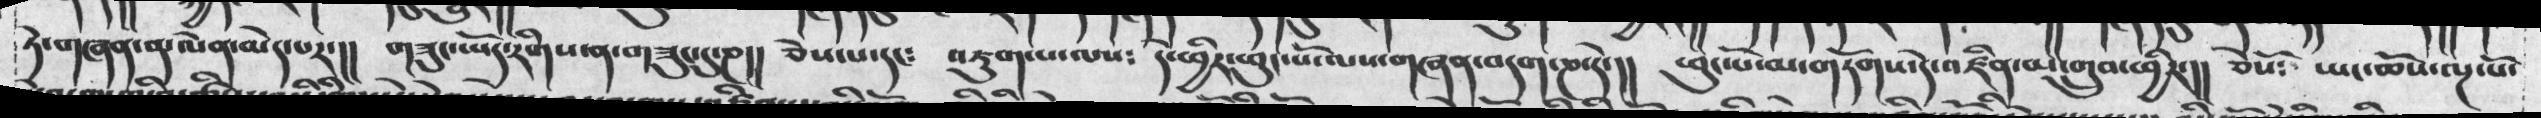ཏེ་གཞན་ན་ལེན་མེད་པར་།།   གཟུང་ཡོད་རིགས་ན་གཟུང་དུ་ཎ།།    ཅེས་པ་དང༴  འཇུག་པ་ལས༴   དེ་ཕྱིར་ཕུང་པོ་ལས་གཞན་བདག་ཎ་དེ་།།   ཕུང་པོ་མ་གཏོགས་དེ་འཛིན་མ་གྲུབ་ཕྱིར་།།   ཅེསོ༴   ཡང་ཆོས་ལྔ་པོ་
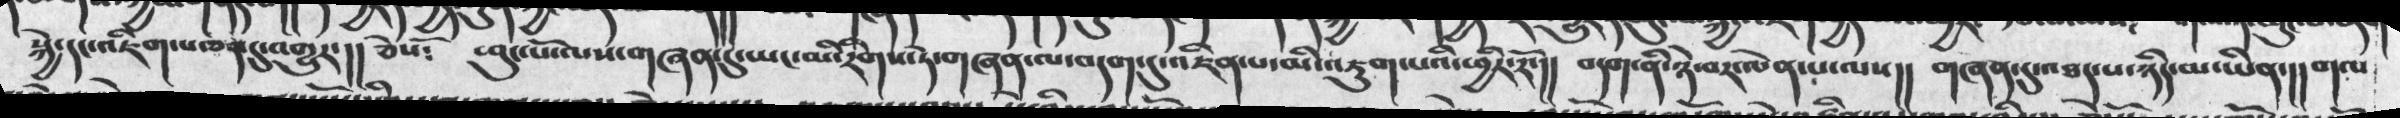སྐྱེ་དང་འཇིག་པ་ཅན་དུ་འགྱུར་།།  ཅེསོ༴   ཕུང་པོ་ལས་གཞན་དུ་ཡང་མི་རིགས་ཏེ་གཞན་ལ་བདག་དུ་འཛིན་པ་མི་འཇུག་པའི་ཕྱིར་རོ་།།  བདག་ནི་ཉེ་བར་ལེན་པ་ལས།།   གཞན་དུ་འཐད་པ་ཉིད་མ་ཡིན་།། གལ་
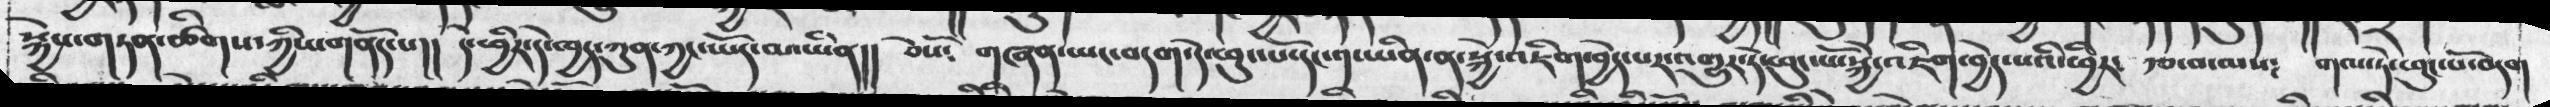སྐྱེས་གཏན་ཚིགས་ཀྱིས་གནོད་པ།། དེ་ཕྱིར་དེ་ཁྱད་ཀུན་ཀྱང་ཡོད་མ་ཡིན།། ཅེསོ༴ གཞན་ཡང་བདག་དེ་ཕུང་པོ་དང་༡་ཡིན་ན་སྐྱེ་འཇིག་བྱེད་པར་འགྱུར་དེ་ཕུང་པོ་སྐྱེ་འཇིག་བྱེད་པའི་ཕྱིར་ རྩ་བ་ལས༴ གལ་ཏེ་ཕུང་པོ་བདག
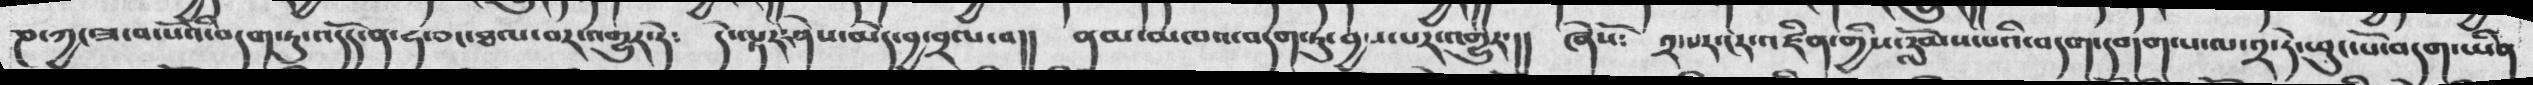ཎ་ཀྱང་ཟ་བ་པོའི་བདག་ཏུ་འདོད་ན་ཧ་ཅང་ཐལ་བར་འགྱུར་ཏེ༴ དེ་ལྟར་ཤེས་མེད་བྱ་བྲལ་བ།། ནམ་མཁའ་བདག་ཏུ་བྱས་པར་འགྱུར་།། ཞེསོ༴ ༢་པར་ངར་འཛིན་གྱིས་རློམས་པའི་བདག་དགག་པ་ལ་༢་ཏེ་ཕུང་པོ་བདག་ཡིན
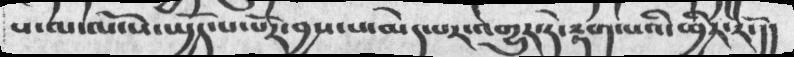ས་ལ་ལོངས་ཡྱོད་པ་པོར་བྱས་པ་མེད་པར་འགྱུར་ཏེ་རྟག་པའི་ཕྱིར་རོ་།།
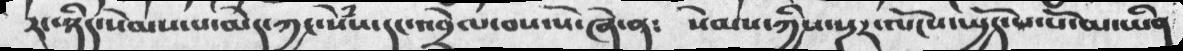རང་ཉིད་སེམས་པ་མེད་ཀྱང་སེྃས་དང་འབྲེལ་བས་སོ་ཞེ་ན༴     སེམས་ཀྱིས་སྔར་ལོངས་ཡྱོད་པ་པོ་མ་ཡིན
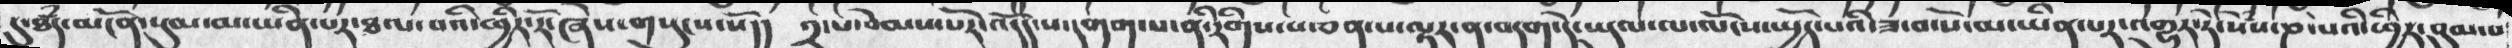དུ་ཐཾད་མངོན་སུམ་མ་ཡིན་པར་ཐལ་བའི་ཕྱིར་རོ་ཞེས་གསུངས་སོ།།  ༢་པ་བེམས་པོར་འདོད་པ་དགག་པ་ནི་རིགས་པ་ཅན་པ་ལྟར་ན་བདག་དེ་ཡུལ་ལ་ལོངས་ཡྱོད་པའི་ཟ་བ་པོ་མ་ཡིན་པར་འགྱུར་ཏེ་སེྃས་ཎ་པའི་ཕྱིར་བུམ་པ
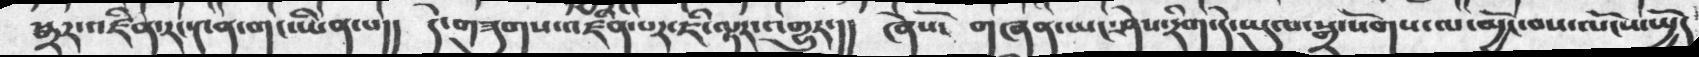སྒྲར་འཛིན་རང་༤ན་གང་ཡིན་པ།། དེ་གཟུགས་འཛིན་པར་ཇི་ལྟར་འགྱུར་།། ཞེསོ་ གཞན་ཡང་ཤེས་རིག་དེ་ཡུལ་སྒྲ་སོགས་ལ་མྱོང་བས་ལོངས་སྤྱོད
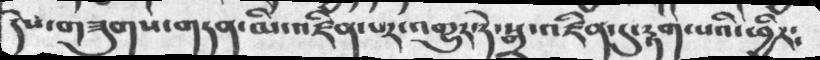དེས་གཟུགས་གཏན་མི་འཛིན་པར་འགྱུར་ཏེ་སྒྲ་འཛིན་དུ་རྟག་པའི་ཕྱིར༴
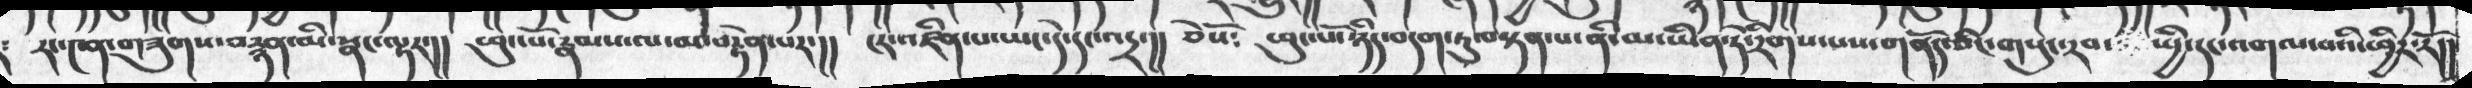རང་༤ན་གཟུགས་བརྙན་མི་སྣང་ལྟར་།།  ཕུང་པོ་རྣམས་ལ་མ་བརྟེན་པར་།།   ངར་འཛིན་པ་ཡང་དེ་དང་འདྲ་།།  ཅེསོ༴  ཕུང་པོ་ཉིད་བདག་ཏུ་བསྟན་པ་ནི་མ་ཡིན་དེ་རིགས་པས་གནོད་ཅིང་གསུང་རབ་ཡྱི་དང་འགལ་བའི་ཕྱིར་རོ།།
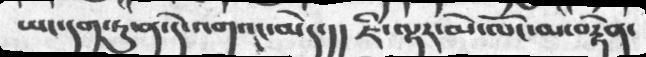ཡང་དག་ཏུ་ན་དེ་འགའང་མེད་།།    ཇི་ལྟར་མེ་ལོང་མ་བརྟེན་
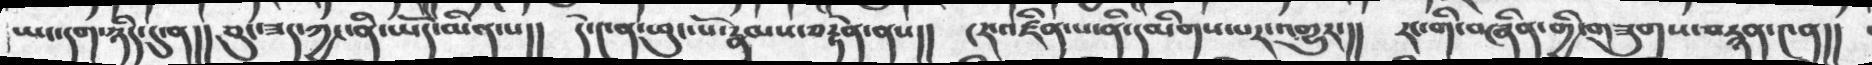ཡང་དག་ཉིད་དུ་ན།།  ཅུང་ཟད་ཀྱང་ནི་ཡོད་མིན་པ།། དེ་༤ན་ཕུང་པོ་རྣམས་བརྟེན་ནས།།  ངར་འཛིན་་པ་ནི་དདམིགས་པར་འགྱུར་།།   རང་གི་བཞིན་གྱི་གཟུགས་བརྙན་༤ན།།
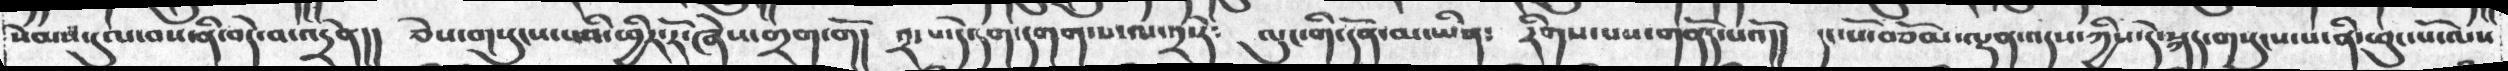སེམས་དུལ་བས་ནི་བདེ་བ་འདྲེན།།  ཅེས་གསུངས་པའི་ཕྱིར་རོ་ཞེས་གྲག་གོ།  ༢་པ་དེ་དགག་པ་ལ་༢་སྟེ༴  ལུང་གི་དོན་མ་ཡིན༴  རིགས་པས་གནོད་པའོ།།  དང་པོ་བཅོམ་ལྡན་འདས་ཀྱིས་དེ་སྐད་གསུངས་པ་ནི་ཕུང་པོ་ལས
